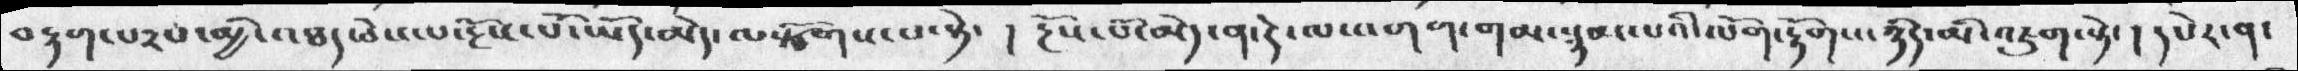བརྟག་པ༢པ་མྱི་འཐད་ཅེས་པ་རྔོས་པོ་ཡོད་མེད་ལསྩོགས་པ་སྟེ་   །  རྔོས་པོ་མེད་ན་དེ་ལ་འགག་གམ་སྙམ་པའི་ལོག་རྟོགས་ཉིད་མི་འཇུག་སྟེ་ ། དཔེར་ན་
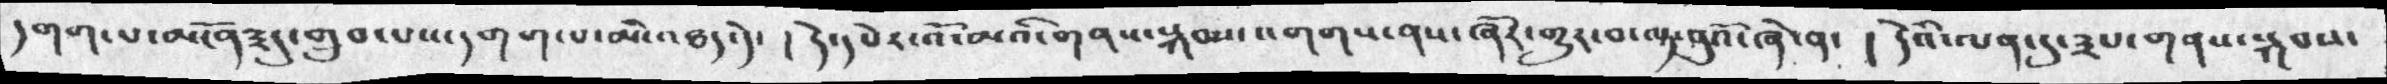དགག་པ་མངོན༣དུ་གྲུབ་པས་དགག་པ་མི་འཐད་དེ་ ། དེ་དཔེར་འོ་མའི་གནས་སྐབས་འགགས་ནས་ཞོར་གྱུར་བ་ལྟ་བུའོ་ཞེ་ན་  ། དེའི་ལན་དུ་༣པ་གནས་སྐབས་
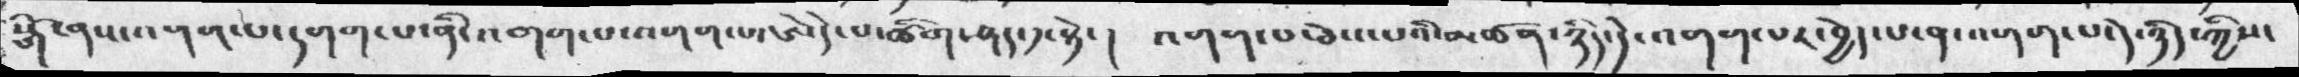སྒོ་ནས་འགག་པ་དགག་པ་ནི་འགག་པས་འགག་པ་ཨེདེ་པ་ཚིག་ཤད་༡་སྟེ་།  འགག་པ་ཅེས་པའི་མཚན་ཉིད་དེ་འགག་པར་བྱེད་པ་ན་འགག་པ་དེ་ཉིད་ཀྱིས་
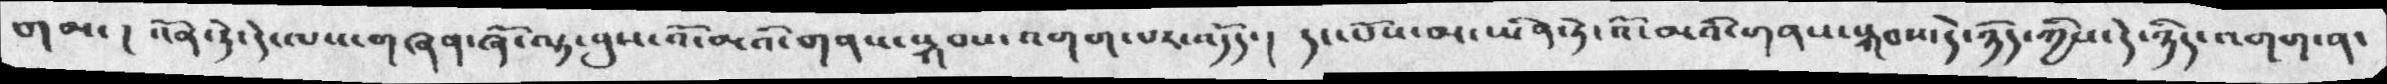གམ་ ། འོན་ཏེ་དེ་ལས་གཞན་ཞོ་ལྟ་བུས་འོ་མའི་གནས་སྐབས་འགག་པར་འདོད་།  དང་པོས་མ་ཡིན་ཏེ་འོ་མའི་གནས་སྐབས་དེ་ཉིད་ཀྱིས་དེ་ཉིད་འགག་ན་
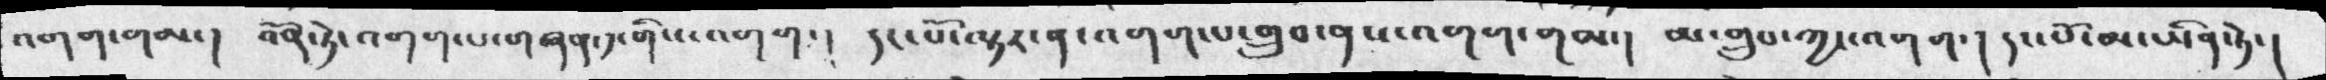འགག་གམ་།  འོན་ཏེ་འགག་པ་གཞན་༡་གིས་འགག་པ་།   དང་པོ་ལྟར་ན་འགག་པ་གྲུབ་ནས་འགག་གམ་།  མ་གྲུབ་ཀྱང་འགག་།  དང་པོ་མ་ཡིན་ཏེ་།
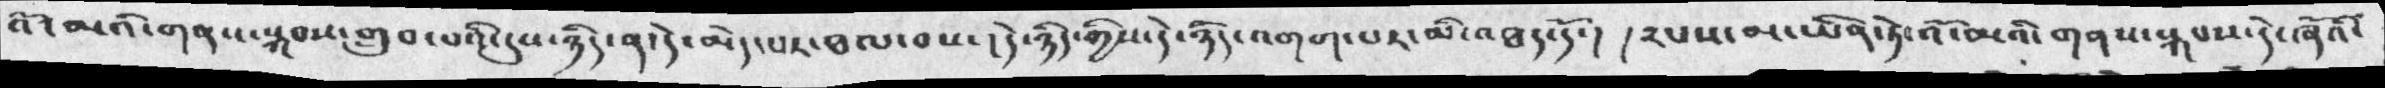འོ་མའི་གནས་སྐབས་གྲུབ་པའི་དུས་ཉིད་ན་དེ་མེད་པར་ཐལ་བས་།  དེ་ཉིད་ཀྱིས་དེ་ཉིད་འགག་པར་མི་འཐད་དོ་།  །༢པས་མ་ཡིན་ཏེ་འོ་མའི་གནས་སྐབས་དེ་ཞོའི་
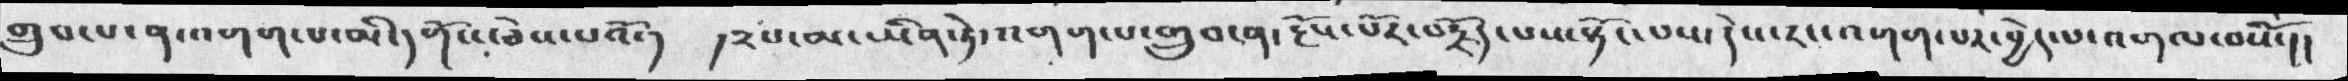གྲུབ་པ་ན་འགག་པ་མི་དགོས་ཅེས་པའོ་།  །༢པ་མ་ཡིན་ཏེ་འགག་པ་གྲུབ་ན་རྔོས་པོར་བརྗོད་པས་སྟོང་པས་དེས་རང་འགག་པར་བྱེད་པ་འགལ་བསོ་།།
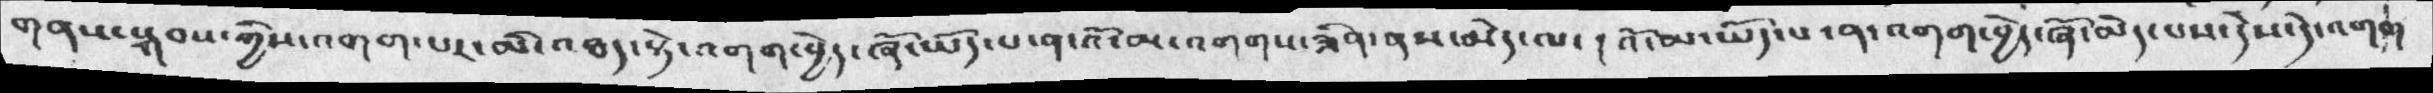གནས་སྐབས་ཀྱིས་འགག་པར་མི་འཐད་སྟེ་འགག་བྱེད་ཞོ་ཡོད་པ་ན་འོ་མ་འགགས་ཟིན་ནས་མེད་ལ་ ། འོ་མ་ཡོད་པ་ན་འགག་བྱེད་ཞོ་མེད་པས་དེས་དེ་འགག
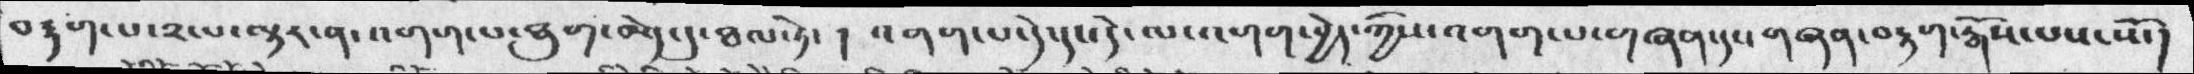བརྟག་པ་༢་པ་ལྟར་ན་འགག་པ་ཐུག་མེད་དུ་ཐལ་ཏེ་ ། འགག་པ་དེ་དང་དེ་ལ་འགག་བྱེད་ཀྱིས་འགག་པ་གཞན་དང་གཞན་བརྟག་རྒོས་པས་སོ་།
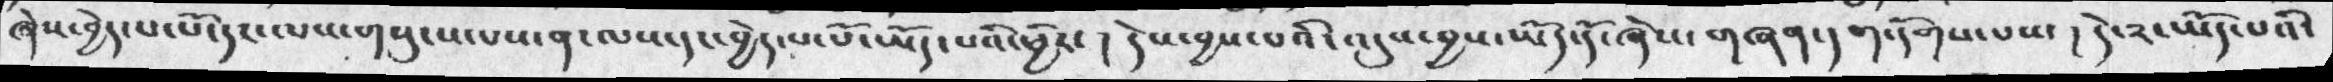ཞེས་བྱེད་པ་པོ་དང་ལས་གསུངས་པས་ན་ལས་དང་བྱེད་པ་པོ་ཡོད་པའི་ཕྱིར་།  དེས་བྱས་པའི་འདུས་བྱས་ཡོད་དོ་ཞེས་གཞན་དག་དགོས་པས་  ། དེ་༢་ཡོད་པའི་
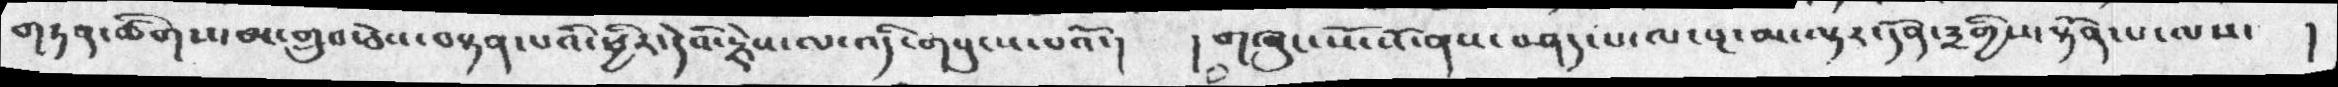གཏན་ཚིགས་མ་གྲུབ་ཅེས་བསྟན་པའི་ཕྱིར་དེའི་རྗེས་ལ་འདི་གསུངས་པའོ་།   ། གཞུང་སོ་སོ་ནས་བཤད་པ་ལ་སྔ་མ་ལྟར་དོན་༣གྱིས་སྟོན་པ་ལ་   །
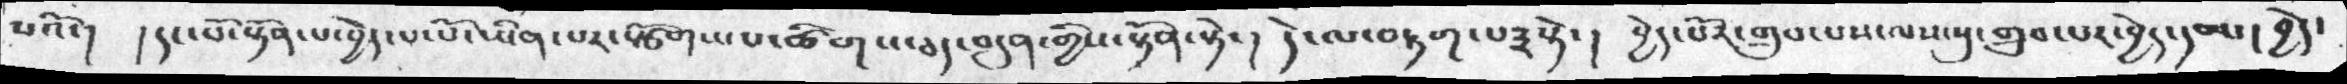པའོ་།  ། དང་པོ་སྟོན་པ་བྱེད་པ་པོ་ཡིན་པར་སྩོགས་པ་ཚིགས་བཅད་བདུན་གྱི་སྟོན་སྟེ་ ། དེ་ལ་བརྟག་པ༣སྟེ་།     བྱེད་པོར་གྲུབ་པས་ལས་སུ་གྲུབ་པར་བྱེད་དམ་། བྱེད་
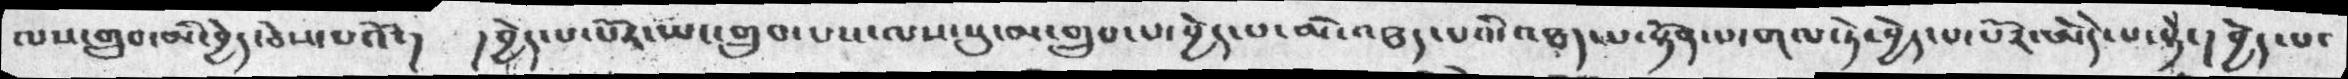ལས་གྲུབ་མི་བྱེད་ཅེས་པའོ་།  །བྱེད་པ་པོར་ཡང་གྲུབ་པས་ལས་སུ་མ་གྲུབ་པ་བྱེད་པ་མི་འཐད་པའི་འཐད་པ་སྟོན་པ་གལ་ཏེ་བྱེད་པ་པོར་ཨེདེ་པ་སྟེ་། བྱེད་པ་
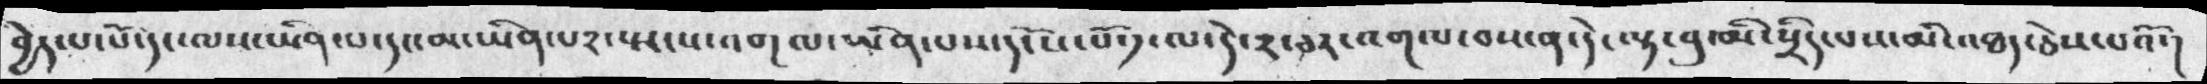བྱེད་པ་པོ་དང་ལས་ཡིན་པ་དང་མ་ཡིན་པ༢་སྤངས་འགལ་ཡིན་པས་དངོས་པོ་༡་ལ་དེ་༢་ཅར་འགལ་བས་ན་དེ་ལྟ་བུ་མི་སྲིད་པས་མི་འཐད་ཅེས་པའོ་།
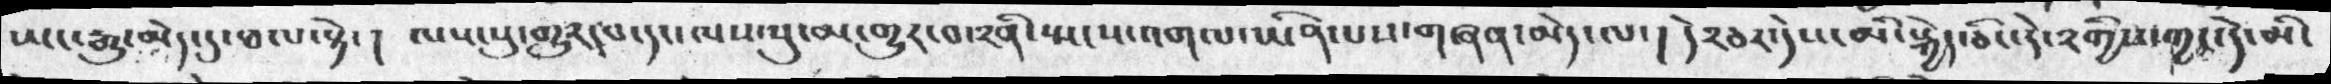ཡང་རྒྱུ་མེད་དུ་ཐལ་སྟེ་། ལས་སུ་གྱུར་བ་དང་ལས་སུ་མ་གྱུར་བ་༢ནི་སྤངས་འགལ་ཡིན་པས་གཞན་མེད་ལ་། དེ༢ཅར་དེས་མི་སྐྱེད་ཅིང་དེ་༢ཀྱིས་ཀྱང་དེ་མི་
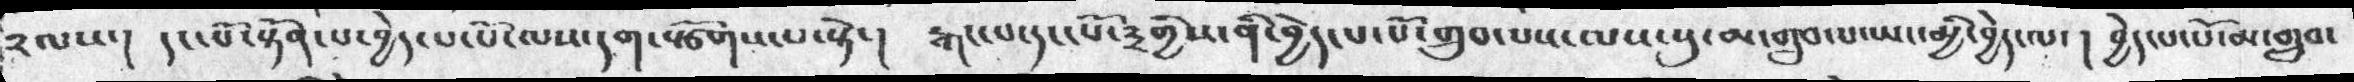༢ལས་། དང་པོ་སྟོན་པ་བྱེད་པ་པོ་ལས་དག་སྩོགས་པ་སྟེ་།  རྐང་པ་དང་པོ་༣གྱིས་ནི་བྱེད་པ་པོ་གྲུབ་པས་ལས་སུ་མ་གྲུབ་པ་ཡང་མྱི་བྱེད་ལ་།  བྱེད་པ་པོ་མ་གྲུབ་
